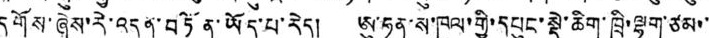དགོས་ཞེས་རེ་འདུན་བཏོན་ཡོད་པ་རེད། ཨུ་ཧན་ས་ཁུལ་གྱི་དཔུང་སྡེ་ཆིག་ཁྲི་ལྷག་ཙམ་་
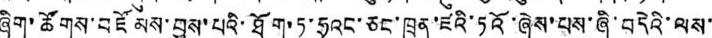ཞིག་ཚོགས་བཛོམས་བྱས་པའི་ཐོག་ཏུ་ཧྲའང་ཅང་ཁྲན་ཛའི་ཏའོ་ཞེས་པས་ཞི་བདེའི་ལས་
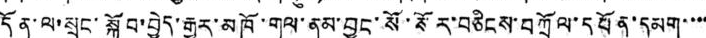དོན་ལ་སྲུང་སྐྱོབ་བྱེད་རྒྱུར་མཁོ་གལ་ནམ་བྱུང་སོ་སོར་བཅིངས་བཀྲོལ་དཔོན་དམག་་་་
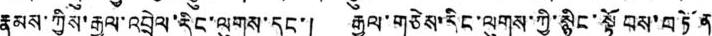རྣམས་ཀྱིས་རྒྱལ་འབྲེལ་རིང་ལུགས་དང་། རྒྱལ་གཅེས་རིང་ལུགས་ཀྱི་སྙིང་སྟོབས་བཏོན
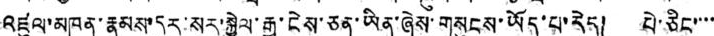འཛུལ་མཁན་རྣམས་དུར་སར་སྐྱེལ་རྒྱུ་ངེས་ཅན་ཡིན་ཞེས་གསུངས་ཡོད་པ་རེད། པེ་ཅིང་་་་
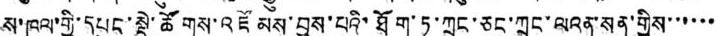ས་ཁུལ་གྱི་དཔུང་སྡེ་ཚོགས་འཛོམས་བྱས་པའི་ཐོག་ཏུ་ཀྲུང་ཅང་ཀྲང་ལའན་སན་གྱིས་་་་་་
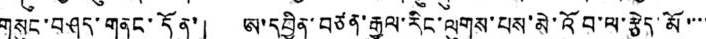གསུང་བཤད་གནང་དོན་། ཨ་དབྱིན་བཙན་རྒྱལ་རིང་ལུགས་པས་མེ་འོབ་ལ་རྩེད་མོ་་་་
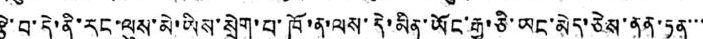རྩེ་བ་དེ་ནི་རང་ལུས་མེ་ཡིས་སྲེག་བ་ཁོ་ན་ལས་དེ་མིན་ཡོང་རྒྱུ་ཅི་ཡང་མེད་ཅེས་ནན་ཏན་་་
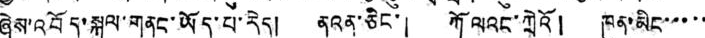ཞེས་འབོད་སྐུལ་གནང་ཡོད་པ་རེད། ནའན་ཅིང་། ཀོ ལའང་ཀྲེའོ། ཁུན་མིང་་་་་
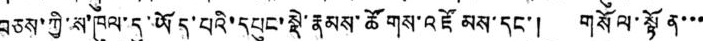བཅས་ཀྱི་ས་ཁུལ་དུ་ཡོད་པའི་དཔུང་སྡེ་རྣམས་ཚོགས་འཛོམས་དང་། གསོལ་སྟོན་་་
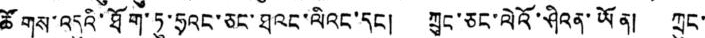ཚོགས་འདུའི་ཐོག་ཏུ་ཧྲའང་ཅང་ཐའང་ལིའང་དང། ཀྲུང་ཅང་ལེའོ་ཤིའན་ཡོན། ཀྲུང་
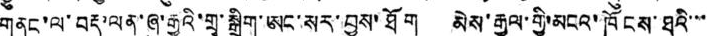གནང་ལ་བརྡ་ལན་ཞུ་རྒྱུའི་གྲྭ་སྒྲིག་ཨང་སར་བྱས་ཐོག མེས་རྒྱལ་གྱི་མངའ་ཁོངས་ཐའི་་་
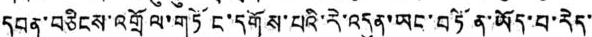དབན་བཅིངས་འགྲོལ་གཏོང་དགོས་པའི་རེ་འདུན་ཡང་བཏོན་ཡོད་པ་རེད་
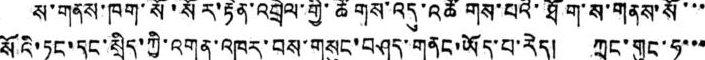སོའི་ཏང་དང་སྲིད་ཀྱི་འགན་འཁུར་བས་གསུང་བཤད་གནང་ཡོད་པ་རེད། ཀྲུང་གུང་ཧུ་་་
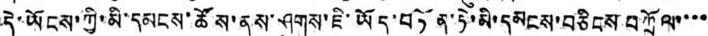དེ་ཡོངས་ཀྱི་མི་དམངས་ཚོས་ནུས་ཤུགས་ཇི་ཡོད་བཏོན་ཏེ་མི་དམངས་བཅིངས་བཀྲོལ་་་་
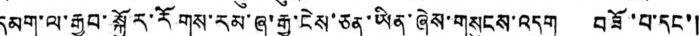དམག་ལ་རྒྱབ་སྐྱོར་རོགས་རམ་ཞུ་རྒྱུ་ངེས་ཅན་ཡིན་ཞེས་གསུངས་འདུག བཟོ་པ་དང་།
